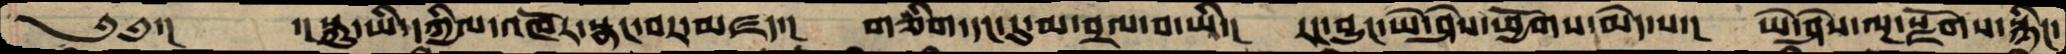༄༅་།     ་། སྐུ་ཡི་དཀྱིལ་འཁོར་སྣང་བར་མཛད་།   གཅིག་དང་དུ་མ་བྲལ་བ་ཡི་།  རང་བྱུང་ཡེ་ཤེས་ཕྱོགས་མེད་པ་།  ཡེ་ཤེས་ལྔ་སྫོགས་སྙིང་
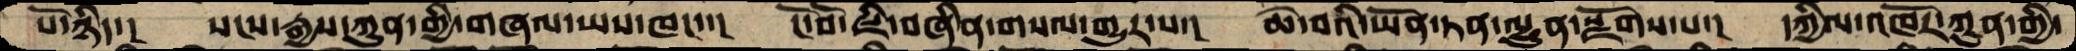པོ་ཉིད་།   སངས་རྒྱས་ཀུན་གྱི་གཞལ་ཡས་ཁང་་།  ངོ་བོ་ཇི་བཞིན་གསལ་གྱུར་པ་།  ཆེ་བའི་ཡོན་ཏན་ལྷུན་སྫོགས་པ་།  དཀྱིལ་འཁོར་ཀུན་གྱི་
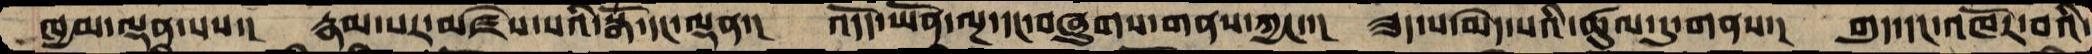ཁྱམ་ལྡན་པས་།  རྣམ་པར་མཛེས་པའི་སྒོ་དང་ལྡན་།  འདོད་ཡོན་ལྔ་དང་བཞུགས་གནས་ཀྱང་་།  ཟད་པ་མེད་པའི་ཚུལ་དུ་གནས་།  གུད་དང་འཁོར་བའི་
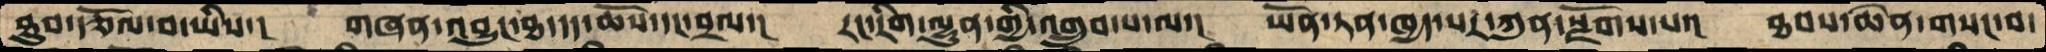ཐུབ་རྩོལ་བ་ཡིས་།  གཞན་འབྱུང་ཐ་དད་ཆོས་དང་བྲལ་།  རང་རིག་ལྷུན་གྱི་འགྲུབ་པ་ལ་།  ཡོན་ཏན་ཁྱད་པར་ཀུན་སྫོགས་པ་།  ཐབས་ཆེན་གསང་བ་
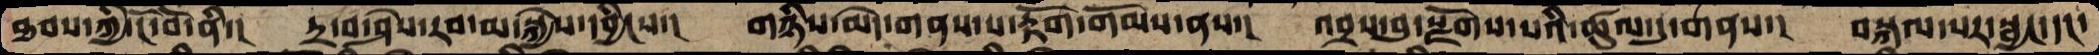ཐབས་ཀྱི་ངོ་བོ་ནི་།  དྲ་བ་ཤེས་རབ་མ་སྐྱེས་དབྱིངས་།  གཉིས་མེད་གནས་པ་རྟོག་གོམས་ནས་།  འབྲས་བུ་སྫོགས་པའི་ཚུལ་དུ་གནས་།  བསྐལ་པར་སྦྱང་དང་
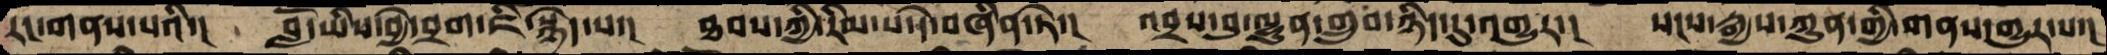རང་གནས་པའི་།  བློ་ཡིས་བྱེ་བྲག་ཇི་སྙེད་པ་  ཐབས་ཀྱི་རིམ་པ་དེ་བཞིན་ཏེ་།  འབྲས་བུ་ལྷུན་གྲུབ་ཉིད་དུ་འགྱུར་།  སངས་རྒྱས་ཀུན་གྱི་གནས་གྱུར་པ་།
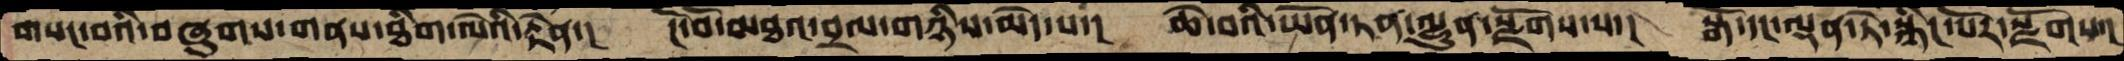གསང་བའི་བཞུགས་གནས་ཐིག་ལེའི་རྟེན་།  ངོ་བོ་མཐའ་བྲལ་གཉིས་མེད་པ་།  ཆེ་བའི་ཡོན་ཏན་ལྷུན་སྫོགས་པ་།  སྒོ་དང་ལྡན་ཏེ་སྙིང་པོར་སྫོགས་།
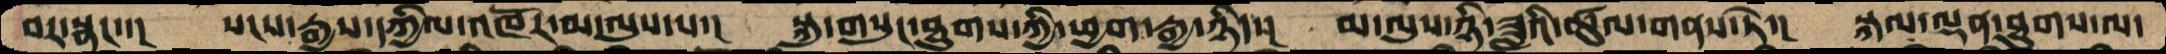བར་སྣང་་།   སངས་རྒྱས་དཀྱིལ་འཁོར་མ་ལུས་པ་།  སྐུ་གསུང་ཐུགས་ཀྱི་ཕྱག་རྒྱ་ཉིད་།  མ་ལུས་ཉི་ཟླའི་ཚུལ་གནས་ཏེ་།  སྐལ་ལྡན་ཐུགས་ལ་
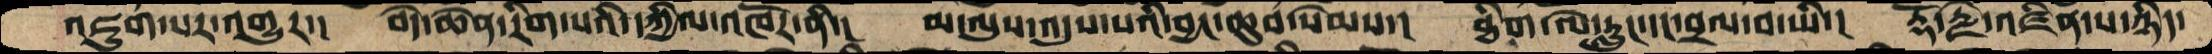འཇུག་པར་འགྱུར་།  བདེ་ཆེན་རིག་པའི་དཀྱིལ་འཁོར་ནི་།   མ་ལུས་འདུས་པའི་བྱང་ཆུབ་སེམས་།   ཐིག་ལེ་རླུང་དང་བྲལ་བ་ཡི་།  རྡོ་རྗེ་འཛིན་པ་ཉིད་
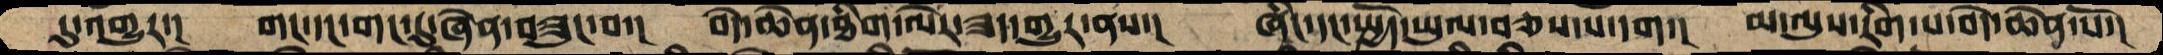དུ་འགྱུར་།  གང་དང་གང་དུ་ཞེན་བཟུང་བ་།  བདེ་ཆེན་ཐིག་ལེར་ཟད་གྱུར་ནས་།  ཞིང་དང་སྤྱོད་ཡུལ་བཅས་པ་དག་།  མ་ལུས་རིག་པ་བདེ་ཆེན་པོ་།
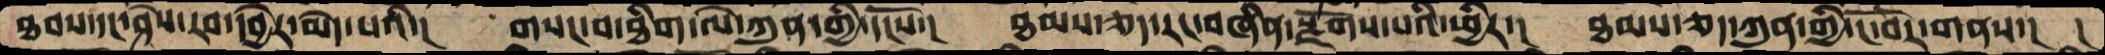ཐབས་དང་ཤེས་རབ་དབྱེར་མེད་པའི་།  གསང་བ་ཐིག་ལེ་ཀུན་གྱི་དངོས་།  ཐམས་ཅད་རང་བཞིན་སྫོགས་པའི་ཕྱིར་།  ཐམས་ཅད་ཀུན་གྱི་ངོ་བོར་གནས་།   །
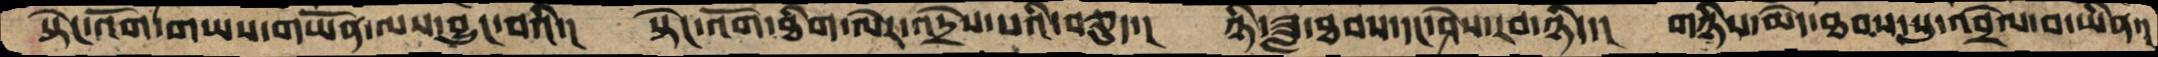སྟེང་འོག་གཡས་གཡོན་ལས་བྱུང་བའི་།  སྟེང་འོག་ཐིག་ལེར་འདྲེས་པའི་བཅུད་།  ཉི་ཟླ་ཐབས་དང་ཤེས་རབ་ཉིད་།  གཉིས་མེད་ཐབས་སུ་འབྲེལ་བ་ཡིན་།
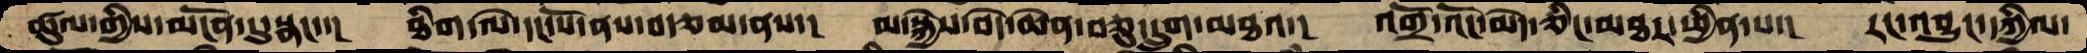ཚུལ་གྱིས་མངོན་དུ་སྣང་་།  ཐིག་ལེ་དང་པོ་ནས་བརྩམ་ནས་།  མ་སྐྱེས་བདེ་ཆེན་བཅུ་དྲུག་མཐའ་།  འགྲོ་འོང་མེད་ཅིང་མཐར་ཕྱིན་པ་།  རང་འབྱུང་དཀྱིལ་
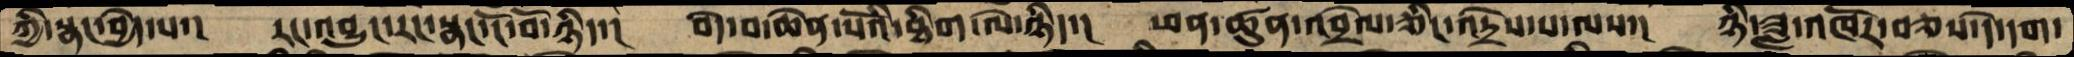ཀྱི་སྣང་བྱེད་པ་།  རང་འབྱུང་རང་སྣང་ངོ་བོ་ཉིད་།  བདེ་བ་ཆེན་པོའི་ཐིག་ལེ་ཉིད་།  ཕན་ཚུན་འབྲེལ་ཅིང་འདྲེས་པ་ལས་།  ཉི་ཟླ་འཁོར་བཅས་དེ་དག་
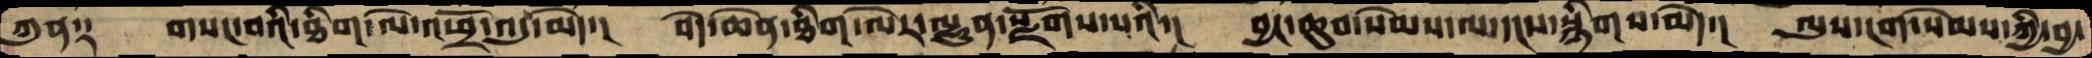ཀུན༑   གསང་བའི་ཐིག་ལེ་འཕྲོ་འདུ་མེད་།  བདེ་ཆེན་ཐིག་ལེར་ལྷུན་སྫོགས་པའི་།  བྱང་ཆུབ་སེམས་ལ་དངས་སྙིགས་མེད་།  ལུས་ངག་སེམས་ཀྱི་བྱ་
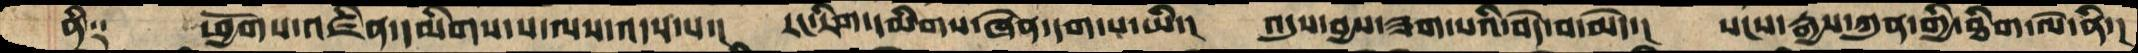ནི༑   ཕྱོགས་འཛིན་དམིགས་པ་ལས་འདས་པ་།  རང་རིག་དམིགས་ཞེན་དག་པ་ཡི་།  འདུས་བྱས་ཟག་པའི་བདེ་བ་མེད་།  སངས་རྒྱས་ཀུན་གྱི་ཐིག་ལེ་ནི་།
